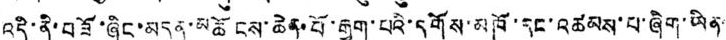འདི་ནི་བཟོ་ཞིང་མདུན་མཆོངས་ཆེན་པོ་རྒྱག་པའི་དགོས་མཁོ་དང་འཚམས་པ་ཞིག་ཡིན་
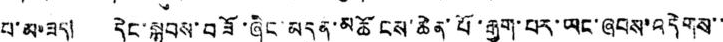པ་མ་ཟད། དེང་སྐབས་བཟོ་ཞིང་མདུན་མཆོངས་ཆེན་པོ་རྒྱག་པར་ཡང་ཞབས་འདེགས་་
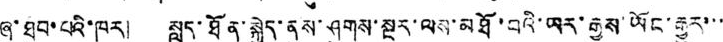ཞུ་ཐུབ་པའི་ཁར། སླད་ཐོན་སྐྱེད་ནུས་ཤུགས་སྔར་ལས་མཐོ་པའི་ཡར་རྒྱས་ཡོང་རྒྱུར་་་
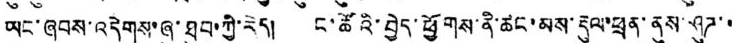ཡང་ཞབས་འདེགས་ཞུ་ཐུབ་ཀྱི་རེད། ང་ཚོའི་བྱེད་ཕྱོགས་ནི་ཚང་མས་རྡུལ་ཕྲན་ནུས་ཤུཌ་་
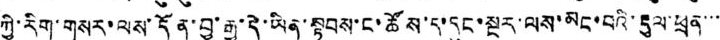ཀྱི་རིག་གསར་ལས་དོན་བྱ་རྒྱུ་དེ་ཡིན་སྟབས་ང་ཚོས་ད་དུང་སྔར་ལས་མང་བའི་རྡུལ་ཕྲན་་་་
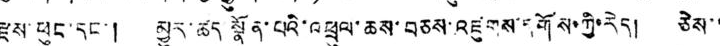རྫས་ཕུང་དང་། མྱུར་ཚད སྣོན་པའི་འཕྲུལ་ཆས་བཅས་འཛུགས་དགོས་ཀྱི་རེད། ཅེས་་
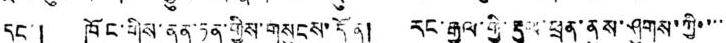དང་། ཁོང་གིས་ནན་ཏན་གྱིས་གསུངས་དོན། རང་རྒྱལ་གྱི་རྡུལ་ཕྲན་ནུས་ཤུགས་ཀྱི་་་་་
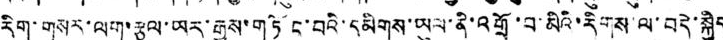རིག་གསར་ལག་རྩལ་ཡར་རྒྱལ་གཏོང་བའི་དམིགས་ཡུལ་ནི་འགྲོ་བ་མིའི་རིགས་ལ་བདེ་སྐྱིད
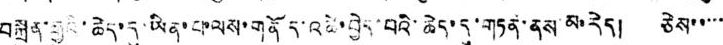བསྐྲུན་རྒྱུའི་ཆེད་དུ་ཡིན་པ་ལས་གནོད་འཚེ་བྱེད་པའི་ཆེད་དུ་གཏན་ནས་མ་རེད། ཅེས་་་་་
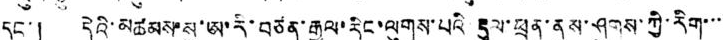དང་། དེའི་མཚམས་སུ་ཨ་རི་བཙན་རྒྱལ་རིང་ལུགས་པའི རྡུལ་ཕྲན་ནུས་ཤུགས་ཀྱི་རིག་་་་
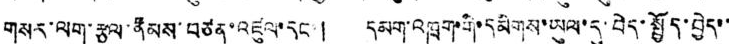གསར་ལག་རྩལ་རྣམས་བཙན་འཛུལ་དང་། དམག་འཁྲུག་གི་དམིགས་ཡུལ་དུ་བེད་སྤྱོད་བྱེད་་
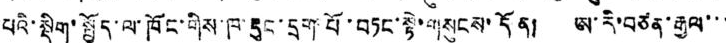པའི་སྡིག་སྤྱོད་ལ་ཁོང་གིས་ཁ་རྡུང་དྲག་པོ་བཏང་སྟེ་གསུངས་དོན། ཨ་རི་བཙན་རྒྱལ་་་
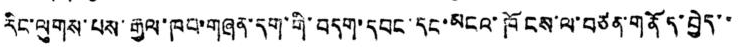རིང་ལུགས་པས་རྒྱལ་ཁབ་གཞན་དག་གི་བདག་དབང་དང་མངའ་ཁོངས་ལ་བཏན་གནོད་བྱེད་་
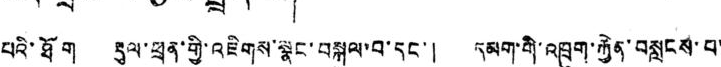པའི་ཐོག རྡུལ་ཕྲན་གྱི་འཇིགས་སྣང་བསྐུལ་བ་དང་། དམག་གི་འཁྲུག་རྐྱེན་བསླངས་པ་
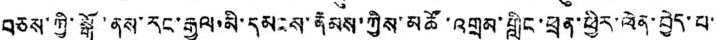བཅས་ཀྱི་སྒོ་ནས་རང་རྒྱལ་མི་དམངས་རྣམས་ཀྱིས་མཚོ་འགྲམ་གླིང་ཕྲན་ཕྱིར་ལེན་བྱེད་པ་་
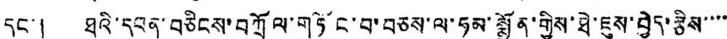དང་། ཐའི་དབན་བཅིངས་བཀྲོལ་གཏོང་བ་བཅས་ལ་ཧམ་སྨྱོན་གྱིས་ཐེ་ཇུས་བྱེད་རྩིས་་་་
